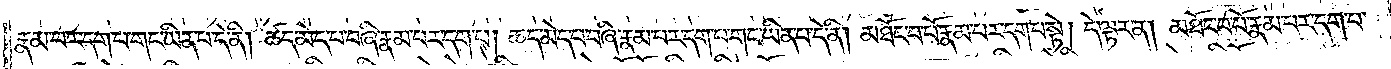རྣམ་པར་དག་པ་གང་ཡིན་པ་དེ་ནི། ཚད་མེད་པ་བཞི་རྣམ་པར་དག་པ། ཚད་མེད་པ་བཞི་རྣམ་པར་དག་པ་གང་ཡིན་པ་དེ་ནི། མཐོང་བ་པོ་རྣམ་པར་དག་པ་སྟེ། དེ་ལྟར་ན། མཐོང་བ་པོ་རྣམ་པར་དག་པ་
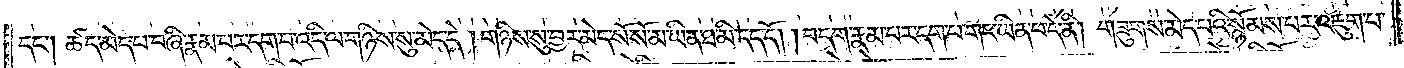དང༌། ཚད་མེད་པ་བཞི་རྣམ་པར་དག་པ་འདི་ལ་གཉིས་སུ་མེད་དེ། གཉིས་སུ་བྱར་མེད་སོ་སོ་མ་ཡིན་ཐ་མི་དད་དོ། །བདག་རྣམ་པར་དག་པ་གང་ཡིན་པ་དེ་ནི། གཟུགས་མེད་པའི་སྙོམས་པར་འཇུག་པ་
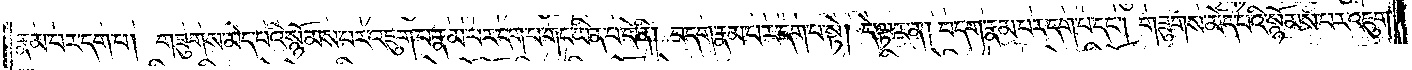རྣམ་པར་དག་པ། གཟུགས་མེད་པའི་སྙོམས་པར་འཇུག་པ་རྣམ་པར་དག་པ་གང་ཡིན་པ་དེ་ནི། བདག་རྣམ་པར་དག་པ་སྟེ། དེ་ལྟར་ན། བདག་རྣམ་པར་དག་པ་དང༌། གཟུགས་མེད་པའི་སྙོམས་པར་འཇུག་
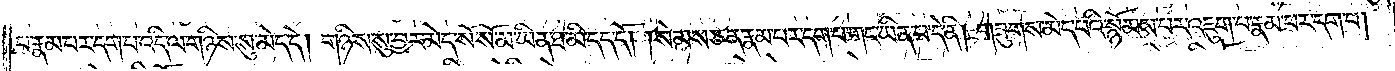པ་རྣམ་པར་དག་པ་འདི་ལ་གཉིས་སུ་མེད་དེ། གཉིས་སུ་བྱར་མེད་སོ་སོ་མ་ཡིན་ཐ་མི་དད་དོ། །སེམས་ཅན་རྣམ་པར་དག་པ་གང་ཡིན་པ་དེ་ནི། གཟུགས་མེད་པའི་སྙོམས་པ་འཇུག་པ་རྣམ་པར་དག་པ།
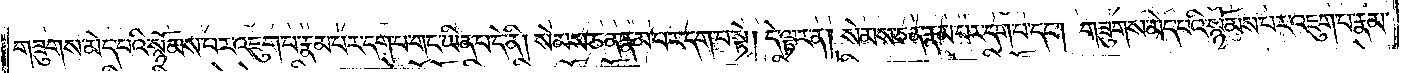གཟུགས་མེད་པའི་སྙོམས་པར་འཇུག་པ་རྣམ་པར་དག་པ་གང་ཡིན་པ་དེ་ནི། སེམས་ཅན་རྣམ་པར་དག་པ་སྟེ། དེ་ལྟར་ན། སེམས་ཅན་རྣམ་པར་དག་པ་དང༌། གཟུགས་མེད་པའི་སྙོམས་པར་འཇུག་པ་རྣམ་
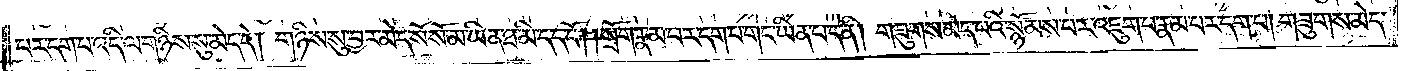པར་དག་པ་འདི་ལ་གཉིས་སུ་མེད་དེ། གཉིས་སུ་བྱར་མེད་སོ་སོ་མ་ཡིན་ཐ་མི་དད་དོ། །སྲོག་རྣམ་པར་དག་པ་གང་ཡིན་པ་དེ་ནི། གཟུགས་མེད་པའི་སྙོམས་པར་འཇུག་པ་རྣམ་པར་དག་པ། གཟུགས་མེད་
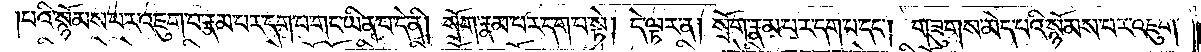པའི་སྙོམས་པར་འཇུག་པ་རྣམ་པར་དག་པ་གང་ཡིན་པ་དེ་ནི། སྲོག་རྣམ་པར་དག་པ་སྟེ། དེ་ལྟར་ན། སྲོག་རྣམ་པར་དག་པ་དང༌། གཟུགས་མེད་པའི་སྙོམས་པར་འཇུག་
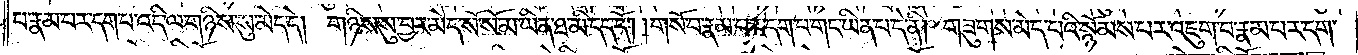པ་རྣམ་པར་དག་པ་འདི་ལ་གཉིས་སུ་མེད་དེ། གཉིས་སུ་བྱར་མེད་སོ་སོ་མ་ཡིན་ཐ་མི་དད་དོ། །གསོ་བ་རྣམ་པར་དག་པ་གང་ཡིན་པ་དེ་ནི། གཟུགས་མེད་པའི་སྙོམས་པར་འཇུག་པ་རྣམ་པར་དག་
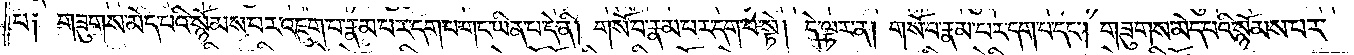པ༑ གཟུགས་མེད་པའི་སྙོམས་པར་འཇུག་པ་རྣམ་པར་དག་པ་གང་ཡིན་པ་དེ་ནི། གསོ་བ་རྣམ་པར་དག་པ་སྟེ། དེ་ལྟར་ན། གསོ་བ་རྣམ་པར་དག་པ་དང༌། གཟུགས་མེད་པའི་སྙོམས་པར་
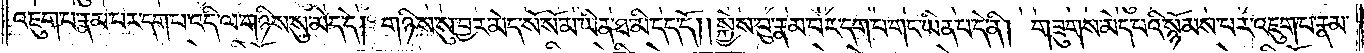འཇུག་པ་རྣམ་པར་དག་པ་འདི་ལ་གཉིས་སུ་མེད་དེ། གཉིས་སུ་བྱར་མེད་སོ་སོ་མ་ཡིན་ཐ་མི་དད་དོ། །སྐྱེས་བུ་རྣམ་པར་དག་པ་གང་ཡིན་པ་དེ་ནི། གཟུགས་མེད་པའི་སྙོམས་པར་འཇུག་པ་རྣམ་
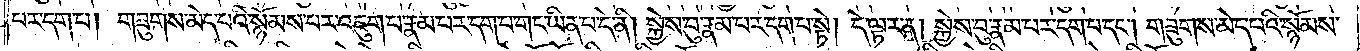པར་དག་པ། གཟུགས་མེད་པའི་སྙོམས་པར་འཇུག་པ་རྣམ་པར་དག་པ་གང་ཡིན་པ་དེ་ནི། སྐྱེས་བུ་རྣམ་པར་དག་པ་སྟེ། དེ་ལྟར་ན། སྐྱེས་བུ་རྣམ་པར་དག་པ་དང༌། གཟུགས་མེད་པའི་སྙོམས་
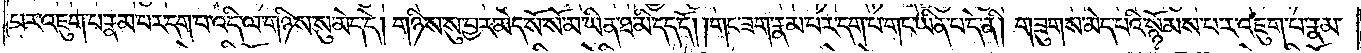པར་འཇུག་པ་རྣམ་པར་དག་པ་འདི་ལ་གཉིས་སུ་མེད་དེ། གཉིས་སུ་བྱར་མེད་སོ་སོ་མ་ཡིན་ཐ་མི་དད་དོ། །གང་ཟག་རྣམ་པར་དག་པ་གང་ཡིན་པ་དེ་ནི། གཟུགས་མེད་པའི་སྙོམས་པར་འཇུག་པ་རྣམ་
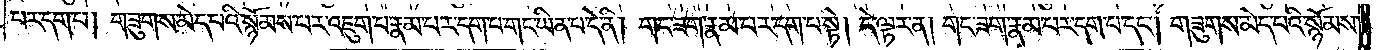པར་དག་པ། གཟུགས་མེད་པའི་སྙོམས་པར་འཇུག་པ་རྣམ་པར་དག་པ་གང་ཡིན་པ་དེ་ནི། གང་ཟག་རྣམ་པར་དག་པ་སྟེ། དེ་ལྟར་ན། གང་ཟག་རྣམ་པར་དག་པ་དང༌། གཟུགས་མེད་པའི་སྙོམས་
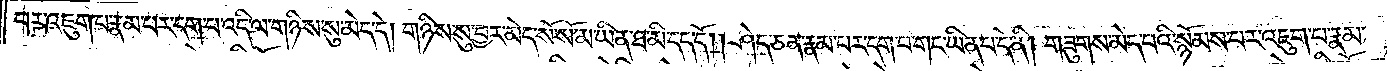པར་འཇུག་པ་རྣམ་པར་དག་པ་འདི་ལ་གཉིས་སུ་མེད་དེ། གཉིས་སུ་བྱར་མེད་སོ་སོ་མ་ཡིན་ཐ་མི་དད་དོ། །ཤེད་ཅན་རྣམ་པར་དག་པ་གང་ཡིན་པ་དེ་ནི། གཟུགས་མེད་པའི་སྙོམས་པར་འཇུག་པ་རྣམ་
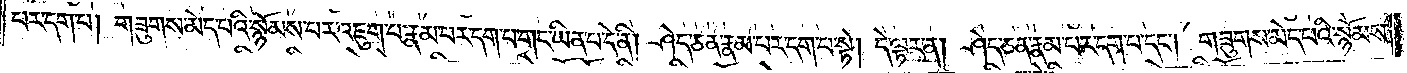པར་དག་པ། གཟུགས་མེད་པའི་སྙོམས་པར་འཇུག་པ་རྣམ་པར་དག་པ་གང་ཡིན་པ་དེ་ནི། ཤེད་ཅན་རྣམ་པར་དག་པ་སྟེ། དེ་ལྟར་ན། ཤེད་ཅན་རྣམ་པར་དག་པ་དང༌། གཟུགས་མེད་པའི་སྙོམས་
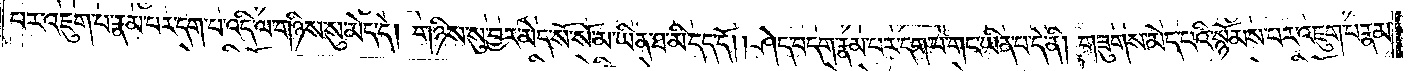པར་འཇུག་པ་རྣམ་པར་དག་པ་འདི་ལ་གཉིས་སུ་མེད་དེ། གཉིས་སུ་བྱར་མེད་སོ་སོ་མ་ཡིན་ཐ་མི་དད་དོ། །ཤེད་བདག་རྣམ་པར་དག་པ་གང་ཡིན་པ་དེ་ནི། གཟུགས་མེད་པའི་སྙོམས་པར་འཇུག་པ་རྣམ་
